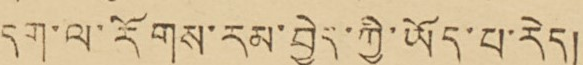དག་ལ་རོགས་རམ་བྱེད་ཀྱི་ཡོད་པ་རེད།
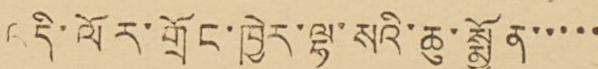འདི་ལོར་གྲོང་ཁྱེར་ལྷ་སའི་ཆུ་སྨྱོན་་་་་
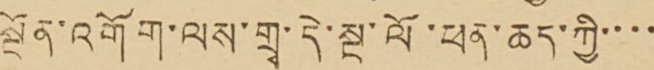སྔོན་འགོག་ལས་གྲྭ་དེ་སྔ་ལོ་ཕན་ཆད་ཀྱི་་་་
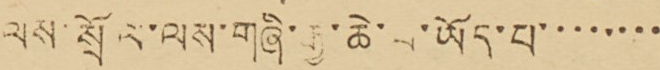ལས་སྲོལ་ལས་གཞི་རྒྱ་ཆེ་བ་ཡོད་པ་་་་་་་
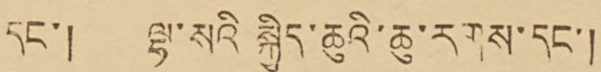དང་། ལྷ་སའི་སྐྱིད་ཆུའི་ཆུ་རགས་དང་།
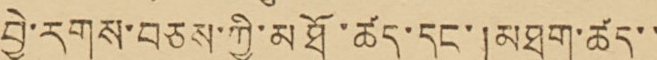བྱེ་རགས་བཅས་ཀྱི་མཐོ་ཚད་དང་། མཐུག་ཚད་་
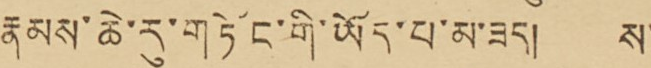རྣམས་ཆེ་རུ་གཏོང་གི་ཡོད་པ་མ་ཟད། ས་
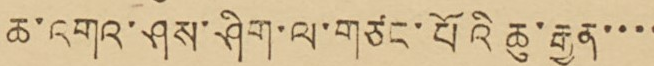ཆ་འགའ་ཤས་ཤིག་ལ་གཙང་པོའི་ཆུ་རྒྱུན་་་་
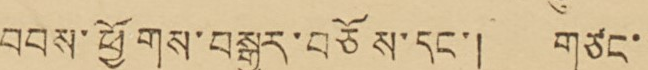བབས་ཕྱོགས་བསྒྱུར་བཅོས་དང་། གཙང་་
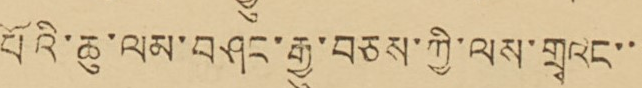པོའི་ཆུ་ལམ་བཤང་རྒྱུ་བཅས་ཀྱི་ལས་གྲྭའང་་་
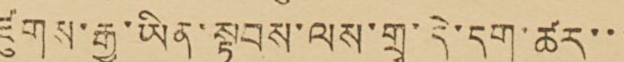ཛུགས་རྒྱུ་ཡིན་སྟབས་ལས་གྲྭ་དེ་དག་ཚར་་་
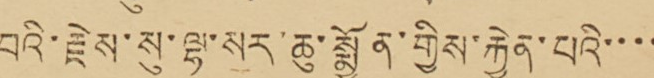བའི་རྗེས་སུ་ལྷ་སར་ཆུ་སྨྱོན་གྱིས་རྐྱེན་པའི་་་་
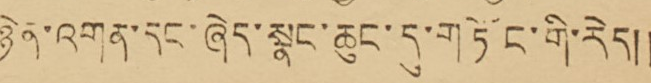ཉེན་འགན་དང་ཞེད་སྣང་ཆུང་དུ་གཏོང་གི་རེད།།
